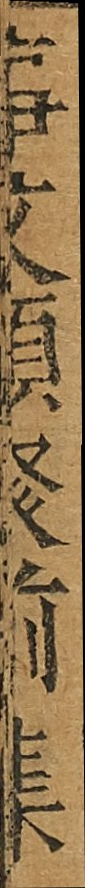事文類聚前集
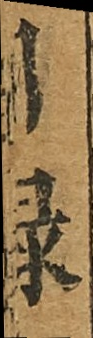目錄
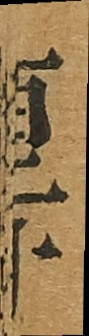百二十
